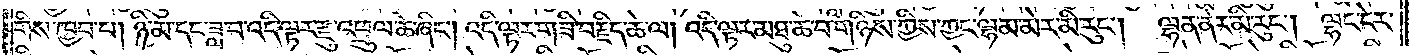གིས་ཁྱབ་པ། ཉི་མ་དང་ཟླ་བ་འདི་ལྟར་རྫུ་འཕྲུལ་ཆེ་ཞིང༌། འདི་ལྟར་གཟི་བརྗིད་ཆེ་ལ། འདི་ལྟར་མཐུ་ཆེ་བ་གཉིས་ཀྱིས་ཀྱང་ལྷམ་མེར་མི་རུང༌། ལྷན་ནེར་མི་རུང༌། ལྷང་ངེར་
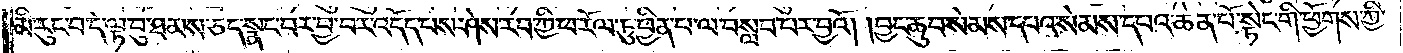མི་རུང་བ་དེ་ལྟ་བུ་ཐམས་ཅད་སྣང་བར་བྱ་བར་འདོད་པས་ཤེས་རབ་ཀྱི་ཕ་རོལ་ཏུ་ཕྱིན་པ་ལ་བསླབ་པར་བྱའོ། །བྱང་ཆུབ་སེམས་དཔའ་སེམས་དཔའ་ཆེན་པོ་སྟེང་གི་ཕྱོགས་ཀྱི་
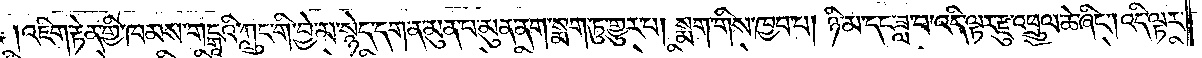འཇིག་རྟེན་གྱི་ཁམས་གངྒཱའི་ཀླུང་གི་བྱེ་མ་སྙེད་དག་ན་མུན་པ་མུན་ནག་སྨག་ཏུ་གྱུར་པ། སྨག་གིས་ཁྱབ་པ། ཉི་མ་དང་ཟླ་བ་འདི་ལྟར་རྫུ་འཕྲུལ་ཆེ་ཞིང༌། འདི་ལྟར་
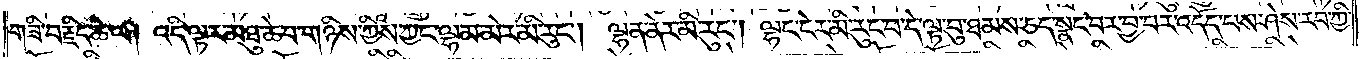གཟི་བརྗིད་ཆེ་ལ། འདི་ལྟར་མཐུ་ཆེ་བ་གཉིས་ཀྱིས་ཀྱང་ལྷམ་མེར་མི་རུང༌། ལྷན་ནེར་མི་རུང༌། ལྷང་ངེར་མི་རུང་བ་དེ་ལྟ་བུ་ཐམས་ཅད་སྣང་བར་བྱ་བར་འདོད་པས་ཤེས་རབ་ཀྱི་
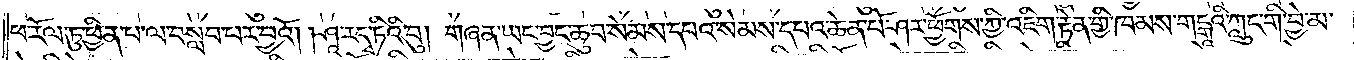ཕ་རོལ་ཏུ་ཕྱིན་པ་ལ་བསླབ་པར་བྱའོ། །ཤཱ་ར་དྭ་ཏིའི་བུ། གཞན་ཡང་བྱང་ཆུབ་སེམས་དཔའ་སེམས་དཔའ་ཆེན་པོ་ཤར་ཕྱོགས་ཀྱི་འཇིག་རྟེན་གྱི་ཁམས་གངྒཱའི་ཀླུང་གི་བྱེ་མ་
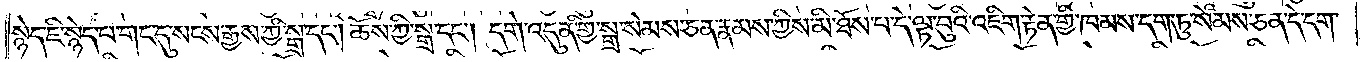སྙེད་ཇི་སྙེད་པ་གང་དུ་སངས་རྒྱས་ཀྱི་སྒྲ་དང༌། ཆོས་ཀྱི་སྒྲ་དང༌། དགེ་འདུན་གྱི་སྒྲ་སེམས་ཅན་རྣམས་ཀྱིས་མི་ཐོས་པ་དེ་ལྟ་བུའི་འཇིག་རྟེན་གྱི་ཁམས་དག་ཏུ་སེམས་ཅན་དེ་དག་
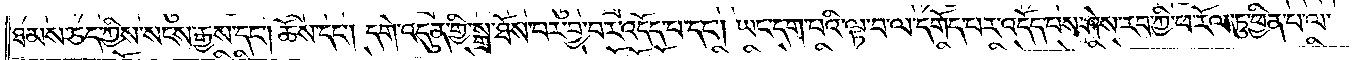ཐམས་ཅད་ཀྱིས་སངས་རྒྱས་དང༌། ཆོས་དང༌། དགེ་འདུན་གྱི་སྒྲ་ཐོས་བར་བྱ་བར་འདོད་པ་དང༌། ཡང་དག་པའི་ལྟ་བ་ལ་དགོད་པར་འདོད་པས་ཤེས་རབ་ཀྱི་ཕ་རོལ་ཏུ་ཕྱིན་པ་ལ་
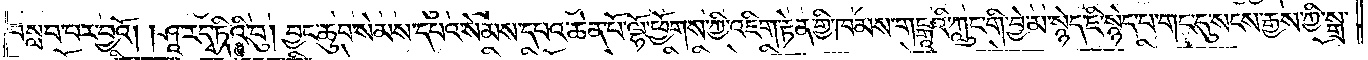བསླབ་པར་བྱའོ། །ཤཱ་ར་དྭ་ཏིའི་བུ། བྱང་ཆུབ་སེམས་དཔའ་སེམས་དཔའ་ཆེན་པོ་ལྷོ་ཕྱོགས་ཀྱི་འཇིག་རྟེན་གྱི་ཁམས་གངྒཱའི་ཀླུང་གི་བྱེ་མ་སྙེད་ཇི་སྙེད་པ་གང་དུ་སངས་རྒྱས་ཀྱི་སྒྲ་
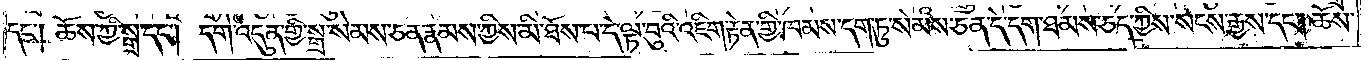དང༌། ཆོས་ཀྱི་སྒྲ་དང༌། དགེ་འདུན་གྱི་སྒྲ་སེམས་ཅན་རྣམས་ཀྱིས་མི་ཐོས་པ་དེ་ལྟ་བུའི་འཇིག་རྟེན་གྱི་ཁམས་དག་ཏུ་སེམས་ཅན་དེ་དག་ཐམས་ཅད་ཀྱིས་སངས་རྒྱས་དང༌། ཆོས་
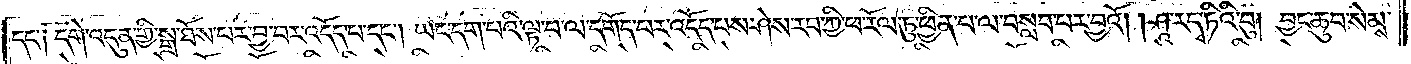དང་༑ དགེ་འདུན་གྱི་སྒྲ་ཐོས་པར་བྱ་བར་འདོད་པ་དང༌། ཡང་དག་པའི་ལྟ་བ་ལ་དགོད་བར་འདོད་པས་ཤེས་རབ་ཀྱི་ཕ་རོལ་ཏུ་ཕྱིན་པ་ལ་བསླབ་པར་བྱའོ། །ཤཱ་ར་དྭ་ཏིའི་བུ། བྱང་ཆུབ་སེམས་
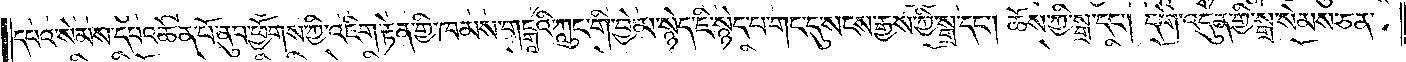དཔའ་སེམས་དཔའ་ཆེན་པོ་ནུབ་ཕྱོགས་ཀྱི་འཇིག་རྟེན་གྱི་ཁམས་གངྒཱའི་ཀླུང་གི་བྱེ་མ་སྙེད་ཇི་སྙེད་པ་གང་དུ་སངས་རྒྱས་ཀྱི་སྒྲ་དང༌། ཆོས་ཀྱི་སྒྲ་དང༌། དགེ་འདུན་གྱི་སྒྲ་སེམས་ཅན་
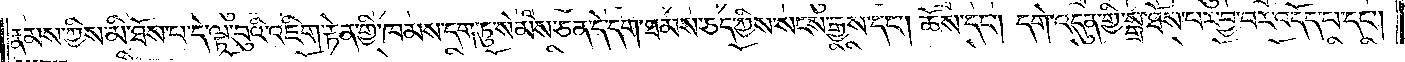རྣམས་ཀྱིས་མི་ཐོས་པ་དེ་ལྟ་བུའི་འཇིག་རྟེན་གྱི་ཁམས་དག་ཏུ་སེམས་ཅན་དེ་དག་ཐམས་ཅད་ཀྱིས་སངས་རྒྱས་དང༌། ཆོས་དང༌། དགེ་འདུན་གྱི་སྒྲ་ཐོས་པར་བྱ་བར་འདོད་པ་དང༌།
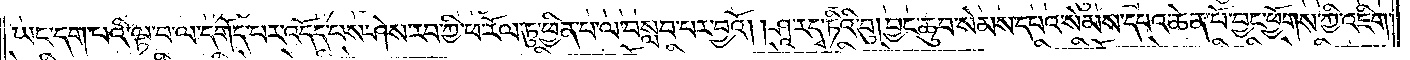ཡང་དག་པའི་ལྟ་བ་ལ་དགོད་པར་འདོད་པས་ཤེས་རབ་ཀྱི་ཕ་རོལ་ཏུ་ཕྱིན་པ་ལ་བསླབ་པར་བྱའོ། །ཤཱ་རདྭ་ཏིའི་བུ། བྱང་ཆུབ་སེམས་དཔའ་སེམས་དཔའ་ཆེན་པོ་བྱང་ཕྱོགས་ཀྱི་འཇིག་
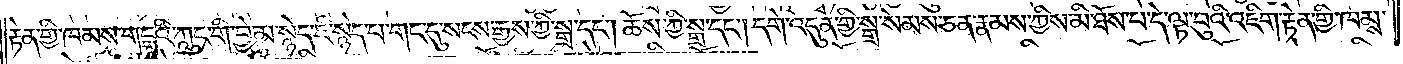རྟེན་གྱི་ཁམས་གངྒཱའི་ཀླུང་གི་བྱེ་མ་སྙེད་ཇི་སྙེད་པ་གང་དུ་སངས་རྒྱས་ཀྱི་སྒྲ་དང༌། ཆོས་ཀྱི་སྒྲ་དང༌། དགེ་འདུན་གྱི་སྒྲ་སེམས་ཅན་རྣམས་ཀྱིས་མི་ཐོས་པ་དེ་ལྟ་བུའི་འཇིག་རྟེན་གྱི་ཁམས་
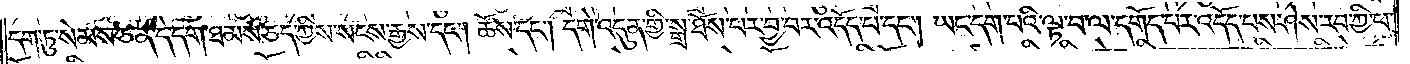དག་ཏུ་སེམས་ཅན་དེ་དག་ཐམས་ཅད་ཀྱིས་སངས་རྒྱས་དང༌། ཆོས་དང༌། དགེ་འདུན་གྱི་སྒྲ་ཐོས་པར་བྱ་བར་འདོད་པ་དང༌། ཡང་དག་པའི་ལྟ་བ་ལ་དགོད་པར་འདོད་པས་ཤེས་རབ་ཀྱི་ཕ་
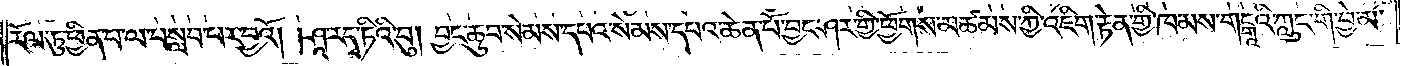རོལ་ཏུ་ཕྱིན་པ་ལ་བསླབ་པར་བྱའོ། །ཤཱ་ར་དྭ་ཏིའི་བུ། བྱང་ཆུབ་སེམས་དཔའ་སེམས་དཔའ་ཆེན་པོ་བྱང་ཤར་གྱི་ཕྱོགས་མཚམས་ཀྱི་འཇིག་རྟེན་གྱི་ཁམས་གངྒཱའི་ཀླུང་གི་བྱེ་མ་
